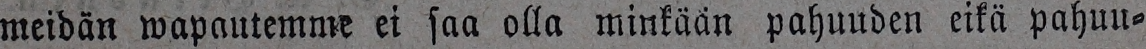meidän wapautemme ei saa olla minkään pahuuden eikä pahuu-
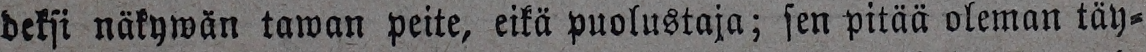deksi näkywän tawan peite, eikä puolustaja; sen pitää oleman täy-
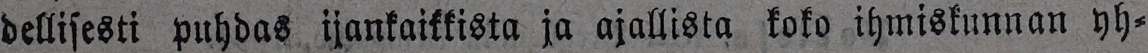dellisesti puhdas ijankaikkista ja ajallista koko ihmiskunnan yh-
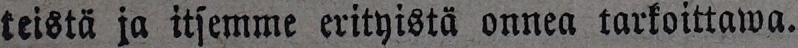teistä ja itsemme erityistä onnea tarkoittawa.
